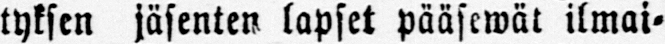tyksen jäsenten lapset pääsewät ilmai-
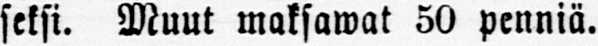seksi. Muut maksawat 50 penniä.
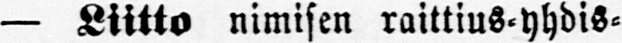— Liitto nimisen raittius-yhdis-
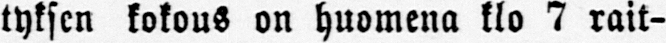tyksen kokous on huomena klo 7 rait-
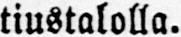tiustalolla.
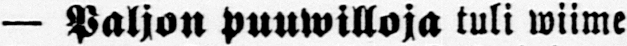—Paljon puuwilloja tuli wiime
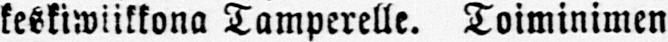keskiwiikkona Tamperelle. Toiminimen
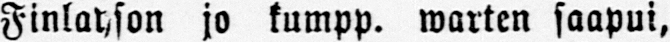Finlayson jo kumpp. warten saapui,
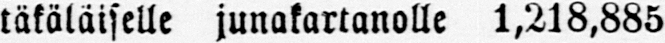täkäläiselle junakartanolle 1,218,885
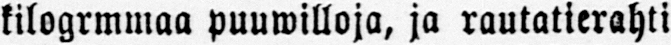kilogrmmaa puuwilloja, ja rautatierahti
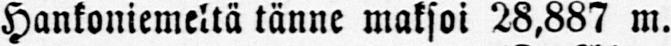Hankoniemeltä tänne maksoi 28,887 m.
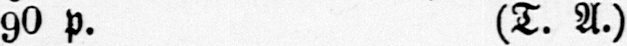90 p. (T. A.)
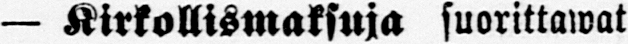— Kirkollismaksuja suorittawat
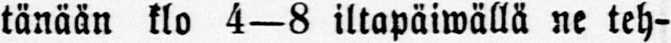tänään klo 4—8 iltapäiwällä ne teh-
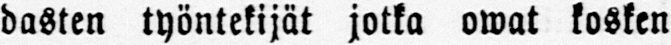dasten työntekijät jotka owat kosken
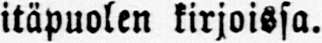itäpuolen kirjoissa.
